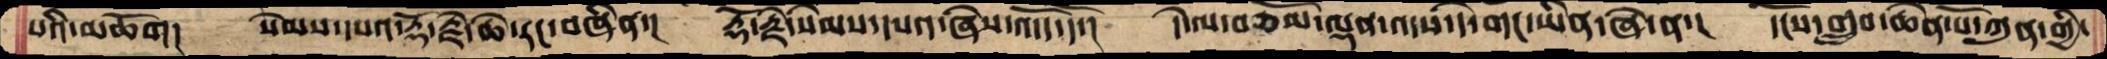པའི་མཆོག།  སེམས་དཔའ་རྡོ་རྗེ་ཆེ་རང་བཞིན་།  རྡོ་རྗེ་སེམས་དཔའ་ཞེས་འདོད་དོ་།  དེ་ལ་བཅོམ་ལྡན་འདས་དེ་གང་ཡིན་ཞེ་ན་།  དངོས་གྲུབ་ཆེན་པོ་ཀུན་གྱི་
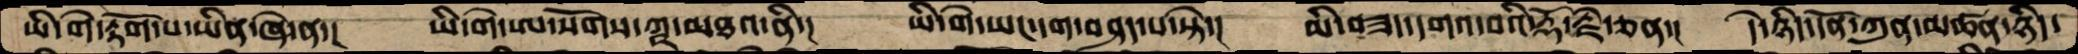ཡི་གེ་རྟོག་པ་ཡིན་ཞེ་ན་།  ཡི་གེ་ཨ་སོགས་ཀྵ་མཐའ་ནི་།  ཡི་གེ་ཡང་དག་བཤད་པ་སྟེ་།  མི་བཟད་དགའ་བའི་རྡོ་རྗེ་ཅན་།  དེ་ཉིད་དོན་ཀུན་མཚན་ཉིད་
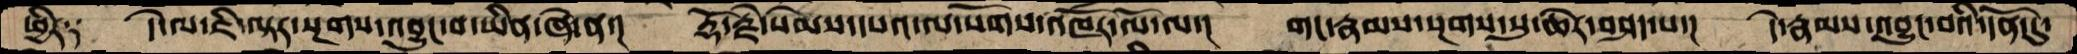ཕྱིར༑  དེ་ལ་ཇིལྟར་སྔགས་འབྱུང་བ་ཡིན་ཞེ་ན་།  རྡོ་རྗེ་སེམས་དཔའ་ལ་སོགས་འཁོར་ལོ་ལ་།  གང་རྣམས་སྔགས་སུ་ཆེར་བཤད་པ་།   དེ་རྣམས་འབྱུང་བའི་དོན་དུ་
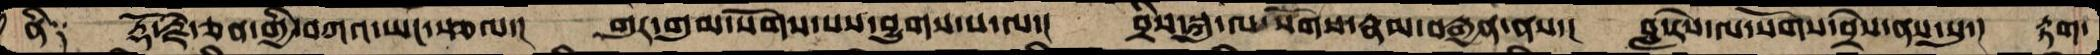ནི༑  རྡོ་རྗེ་ཅན་གྱི་བཀའ་ཡང་སྩལ་།  གུར་གུམ་སོགས་པས་བྱུགས་པ་ལ་།  བྲིས་སྐུ་ལ་སོགས་རྣམ་བརྒྱན་ནས་།  བླ་རེས་ལ་སོགས་བྲེས་ནས་སུ་།  རྟག་
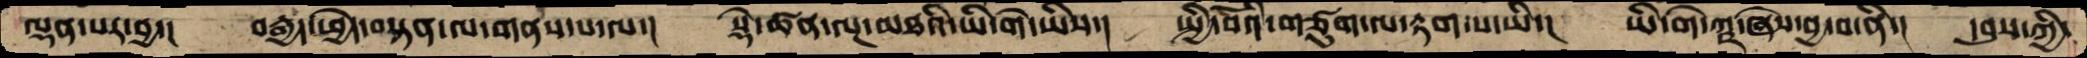ལྡན་པར་བྱ་།  བརྒྱད་ཕྱེད་བསྟན་ལ་གནས་པ་ལ་།  སྡེ་ཚན་ལྔ་མཐའི་ཡི་གེ་ཡིས་།  སྤྱི་བོའི་གཙུག་ལ་རྟག་པ་ཡི་།  ཡི་གེ་ཀྵ་ཞེས་བྱ་བ་ནི་།  དབུས་ཀྱི་
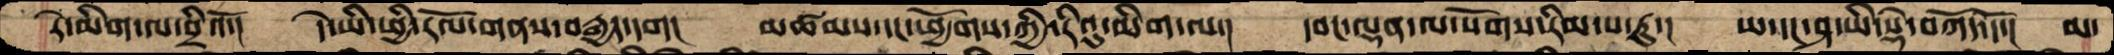རེ་མིག་ལ་བྲིའོ་།  དེ་ཡི་ཕྱི་རོལ་གནས་བརྒྱད་དག།  མཚམས་དང་ཕྱོགས་ཀྱི་རིའུ་མིག་ལ་།  དབང་ལྡན་ལ་སོགས་རིམ་པ་རུ་།  ཡ་དང་ཤ་ཡི་སྡེ་བཀོད་དོ་།  མ་
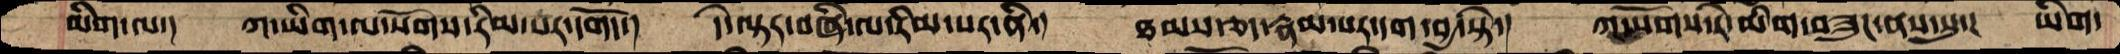མིག་ལ་།  ཀ་ཡིག་ལ་སོགས་རིམ་པར་དགོད་།  དེ་ལྟར་བཞི་ལ་རིམ་པར་ནི་།  ཐམས་ཅད་རྣམ་པར་དག་བྱ་སྟེ་།  ཀ་སོགས་རེ་མིག་བཟུང་ནས་སུ་།  ཡིག་
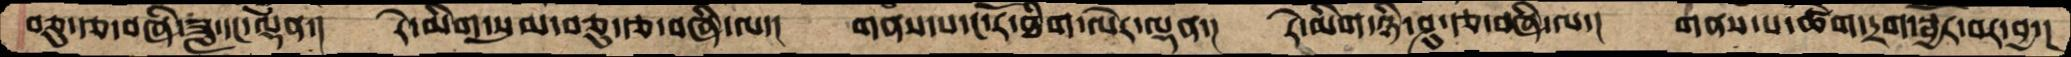བཅུ་རྩ་བཞི་ཟླ་དང་ལྡན་།  རེ་མིག་སུམ་བཅུ་རྩ་བཞི་ལ་།  གནས་པ་ང་རོ་ཐིག་ལེར་ལྡན་།  རེ་མིག་ཉི་ཤུ་རྩ་བཞི་ལ་།  གནས་པཚེག་དྲག་སྦྱར་བར་བྱ་།
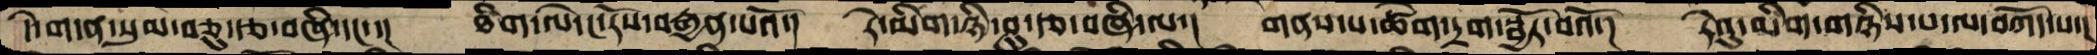དེ་གདན་སུམ་བཅུ་རྩ་བཞི་དང་་།  ཐིག་ལེ་ང་རོས་བརྒྱན་པའོ་།  རེ་མིག་ཉི་ཤུ་རྩ་བཞི་ལ་།  གནས་པ་ཚེག་དྲག་སྦྱོར་བའོ་།  རེའུ་མིག་གཉིས་པ་ལ་བཀོད་པ་།
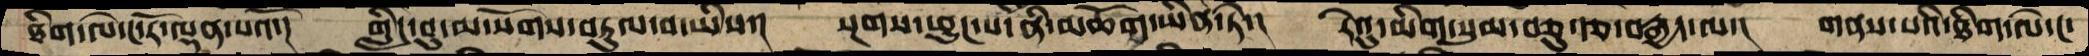ཐིག་ལེ་ང་རོ་ལྡན་པའོ་།  གླིང་བུ་མ་སོགས་བཏུལ་བ་ཡིས་།  སྔགས་ཕྱུང་པ་ནི་མཆོག་ཡིན་ཏེ་།  རེའུ་མིག་སུམ་བཅུ་རྩ་བརྒྱད་ལ་།  གནས་པའི་ཐིག་ལེ་ང་
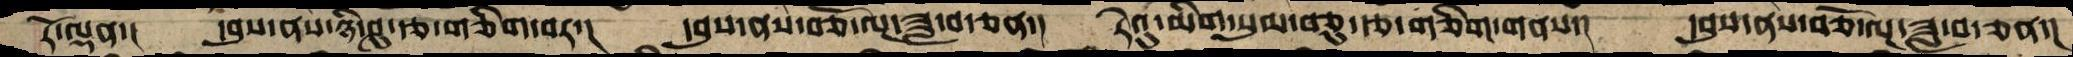རོ་ལྡན་།  དབུས་ནས་ཉི་ཤུ་རྩ་གཅིག་བར་།  དབུས་ནས་བཅོ་ལྔ་ཟླ་བ་ཅན་།  རེའུ་མིག་སུམ་བཅུ་རྩ་གཅིག་གནས་།  དབུས་ནས་བཅོ་ལྔ་ཟླ་བ་ཅན་།
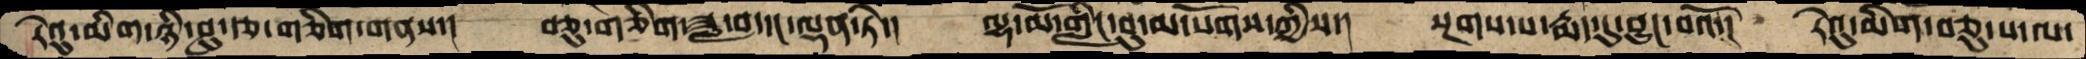རེའུ་མིག་ཉི་ཤུ་རྩ་གཅིག་གནས་།  བཅུ་གཅིག་ཟླ་བ་དང་ལྡན་ཏེ་།  ལྷ་མོ་གླིང་བུ་མ་སོགས་ཀྱིས་། སྔགས་པ་རྨད་དུ་བྱུང་བའོ་།  རེའུ་མིག་བཅུ་པ་ལ་
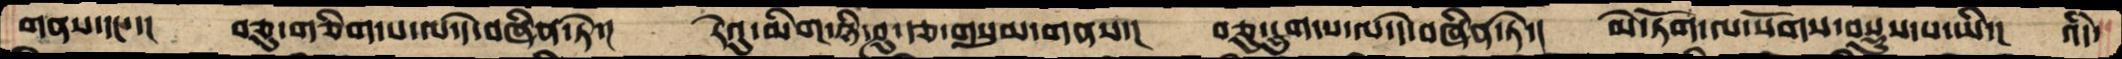གནས་དང་་།  བཅུ་གཅིག་པ་ལ་དེ་བཞིན་ཏེ་།  རེའུ་མིག་ཉི་ཤུ་རྩ་གསུམ་གནས་།  བཅུ་དྲུག་པ་ལ་དེ་བཞིན་ཏེ་།  མེ་ཏོག་ལ་སོགས་བསྡུས་པ་ཡི་།  འདི་
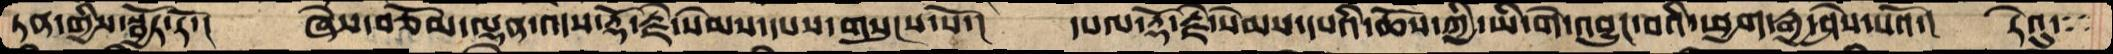ཏན་གྱིས་སྦྱོར་རོ་།  ཞེས་བཅོམ་ལྡན་འདས་རྡོ་རྗེ་སེམས་དཔས་གསུངས་སོ་།  དཔལ་རྡོ་རྗེ་སེམས་དཔའི་ཆོས་ཀྱི་ཡི་གེ་འབྱུང་བའི་ཕྱག་རྒྱ་ཤེས་པའོ་།  རེའུ་
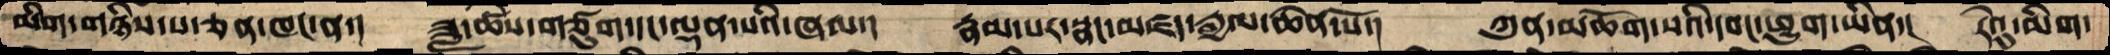མིག་གཉིས་པ་ཅན་ཁང་ན་།  ཟླ་ཚེས་གཙུག་དང་ལྡན་པའི་ཞལ་།  རྣམ་པར་སྣང་མཛད་རྒྱལ་ཆེན་པོ་།  ཀུན་མཆོག་སའི་དབང་ཕྱུག་ཡིན་།  རེའུ་མིག་
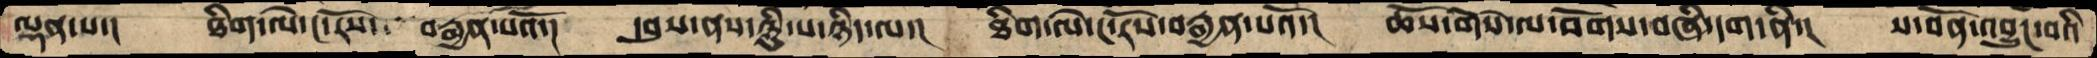ལྡན་པ་།  ཐིག་ལེ་ང་རོས་   བརྒྱན་པའོ་།  དབུས་ནས་ཉིུ་པ་ཉིད་ལ་།  ཐིག་ལེ་ང་རོས་བརྒྱན་པའོ་།  ཆོས་གོས་ལ་བོགས་བཞི་དག་ནི་།  ས་བོན་འབྱུང་བའི་
